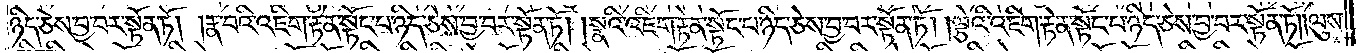ཉིད་ཅེས་བྱ་བར་སྟོན་ཏོ། །རྣ་བའི་འཇིག་རྟེན་སྟོང་པ་ཉིད་ཅེས་བྱ་བར་སྟོན་ཏོ། །སྣའི་འཇིག་རྟེན་སྟོང་པ་ཉིད་ཅེས་བྱ་བར་སྟོན་ཏོ། །ལྕེའི་འཇིག་རྟེན་སྟོང་པ་ཉིད་ཅེས་བྱ་བར་སྟོན་ཏོ། །ལུས་
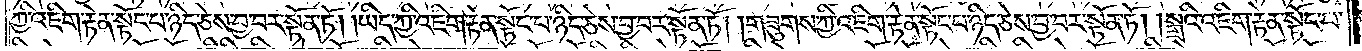ཀྱི་འཇིག་རྟེན་སྟོང་པ་ཉིད་ཅེས་བྱ་བར་སྟོན་ཏོ། །ཡིད་ཀྱི་འཇིག་རྟེན་སྟོང་པ་ཉིད་ཅེས་བྱ་བར་སྟོན་ཏོ། །གཟུགས་ཀྱི་འཇིག་རྟེན་སྟོང་པ་ཉིད་ཅེས་བྱ་བར་སྟོན་ཏོ། །སྒྲའི་འཇིག་རྟེན་སྟོང་པ་
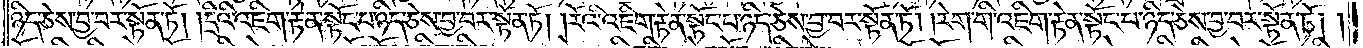ཉིད་ཅེས་བྱ་བར་སྟོན་ཏོ། །དྲིའི་འཇིག་རྟེན་སྟོང་པ་ཉིད་ཅེས་བྱ་བར་སྟོན་ཏོ། །རོའི་འཇིག་རྟེན་སྟོང་པ་ཉིད་ཅེས་བྱ་བར་སྟོན་ཏོ། །རེག་གི་འཇིག་རྟེན་སྟོང་པ་ཉིད་ཅེས་བྱ་བར་སྟོན་ཏོ། །
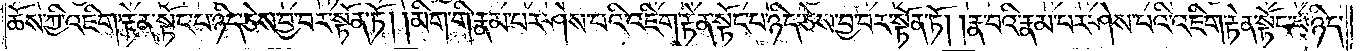ཆོས་ཀྱི་འཇིག་རྟེན་སྟོང་པ་ཉིད་ཅེས་བྱ་བར་སྟོན་ཏོ། །མིག་གི་རྣམ་པར་ཤེས་པའི་འཇིག་རྟེན་སྟོང་པ་ཉིད་ཅེས་བྱ་བར་སྟོན་ཏོ། །རྣ་བའི་རྣམ་པར་ཤེས་པའི་འཇིག་རྟེན་སྟོང་པ་ཉིད་
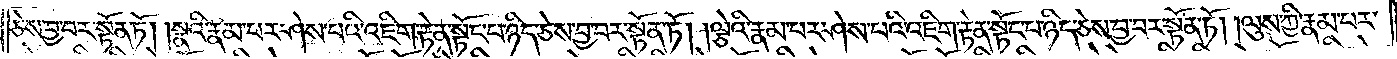ཅེས་བྱ་བར་སྟོན་ཏོ། །སྣའི་རྣམ་པར་ཤེས་པའི་འཇིག་རྟེན་སྟོང་པ་ཉིད་ཅེས་བྱ་བར་སྟོན་ཏོ། །ལྕེའི་རྣམ་པར་ཤེས་པའི་འཇིག་རྟེན་སྟོང་པ་ཉིད་ཅེས་བྱ་བར་སྟོན་ཏོ། །ལུས་ཀྱི་རྣམ་པར་
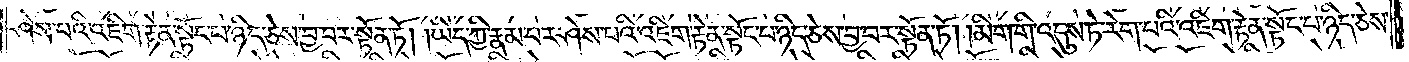ཤེས་པའི་འཇིག་རྟེན་སྟོང་པ་ཉིད་ཅེས་བྱ་བར་སྟོན་ཏོ། །ཡིད་ཀྱི་རྣམ་པར་ཤེས་པའི་འཇིག་རྟེན་སྟོང་པ་ཉིད་ཅེས་བྱ་བར་སྟོན་ཏོ། །མིག་གི་འདུས་ཏེ་རེག་པའི་འཇིག་རྟེན་སྟོང་པ་ཉིད་ཅེས་
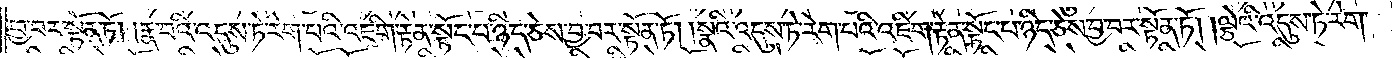བྱ་བར་སྟོན་ཏོ། །རྣ་བའི་འདུས་ཏེ་རེག་པའི་འཇིག་རྟེན་སྟོང་པ་ཉིད་ཅེས་བྱ་བར་སྟོན་ཏོ། །སྣའི་འདུས་ཏེ་རེག་པའི་འཇིག་རྟེན་སྟོང་པ་ཉིད་ཅེས་བྱ་བར་སྟོན་ཏོ། །ལྕེའི་འདུས་ཏེ་རེག་
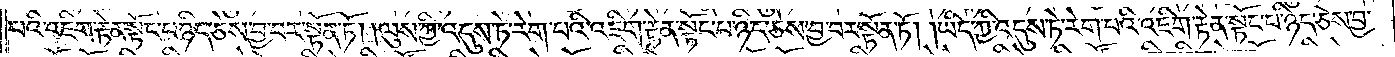པའི་འཇིག་རྟེན་སྟོང་པ་ཉིད་ཅེས་བྱ་བར་སྟོན་ཏོ། །ལུས་ཀྱི་འདུས་ཏེ་རེག་པའི་འཇིག་རྟེན་སྟོང་པ་ཉིད་ཅེས་བྱ་བར་སྟོན་ཏོ། །ཡིད་ཀྱི་འདུས་ཏེ་རེག་པའི་འཇིག་རྟེན་སྟོང་པ་ཉིད་ཅེས་བྱ་
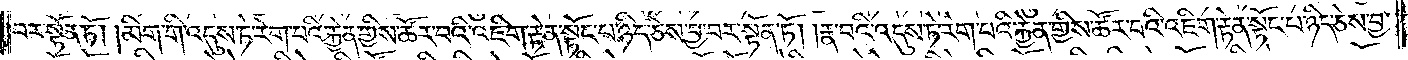བར་སྟོན་ཏོ། །མིག་གི་འདུས་ཏེ་རེག་པའི་རྐྱེན་གྱིས་ཚོར་བའི་འཇིག་རྟེན་སྟོང་པ་ཉིད་ཅེས་བྱ་བར་སྟོན་ཏོ། །རྣ་བའི་འདུས་ཏེ་རེག་པའི་རྐྱེན་གྱིས་ཚོར་བའི་འཇིག་རྟེན་སྟོང་པ་ཉིད་ཅེས་བྱ་
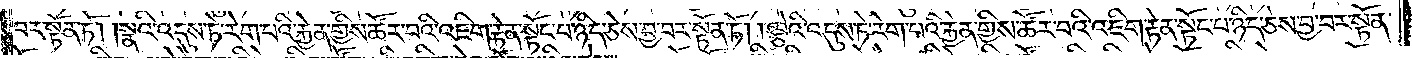བར་སྟོན་ཏོ། །སྣའི་འདུས་ཏེ་རེག་པའི་རྐྱེན་གྱིས་ཚོར་བའི་འཇིག་རྟེན་སྟོང་པ་ཉིད་ཅེས་བྱ་བར་སྟོན་ཏོ། །ལྕེའི་འདུས་ཏེ་རེག་པའི་རྐྱེན་གྱིས་ཚོར་བའི་འཇིག་རྟེན་སྟོང་པ་ཉིད་ཅེས་བྱ་བར་སྟོན་
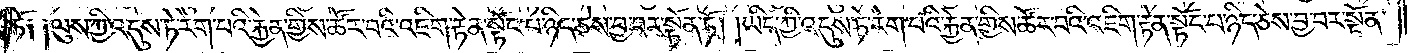ཏོ། །ལུས་ཀྱི་འདུས་ཏེ་རེག་པའི་རྐྱེན་གྱིས་ཚོར་བའི་འཇིག་རྟེན་སྟོང་པ་ཉིད་ཅེས་བྱ་བར་སྟོན་ཏོ། །ཡིད་ཀྱི་འདུས་ཏེ་རེག་པའི་རྐྱེན་གྱིས་ཚོར་བའི་འཇིག་རྟེན་སྟོང་པ་ཉིད་ཅེས་བྱ་བར་སྟོན་
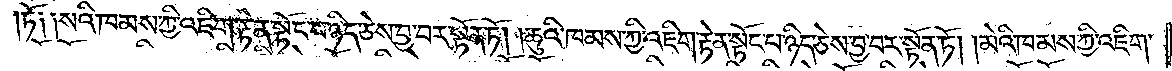ཏོ། །སའི་ཁམས་ཀྱི་འཇིག་རྟེན་སྟོང་པ་ཉིད་ཅེས་བྱ་བར་སྟོན་ཏོ། །ཆུའི་ཁམས་ཀྱི་འཇིག་རྟེན་སྟོང་པ་ཉིད་ཅེས་བྱ་བར་སྟོན་ཏོ། །མེའི་ཁམས་ཀྱི་འཇིག་
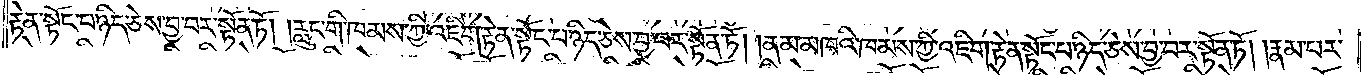རྟེན་སྟོང་པ་ཉིད་ཅེས་བྱ་བར་སྟོན་ཏོ། །རླུང་གི་ཁམས་ཀྱི་འཇིག་རྟེན་སྟོང་པ་ཉིད་ཅེས་བྱ་བར་སྟོན་ཏོ། །ནམ་མཁའི་ཁམས་ཀྱི་འཇིག་རྟེན་སྟོང་པ་ཉིད་ཅེས་བྱ་བར་སྟོན་ཏོ། །རྣམ་པར་
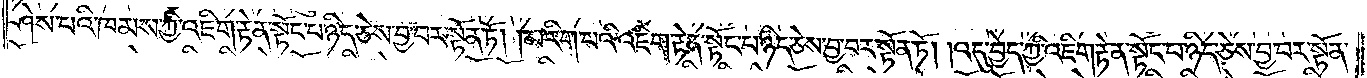ཤེས་པའི་ཁམས་ཀྱི་འཇིག་རྟེན་སྟོང་པ་ཉིད་ཅེས་བྱ་བར་སྟོན་ཏོ། །མ་རིག་པའི་འཇིག་རྟེན་སྟོང་པ་ཉིད་ཅེས་བྱ་བར་སྟོན་ཏོ། །འདུ་བྱེད་ཀྱི་འཇིག་རྟེན་སྟོང་པ་ཉིད་ཅེས་བྱ་བར་སྟོན་
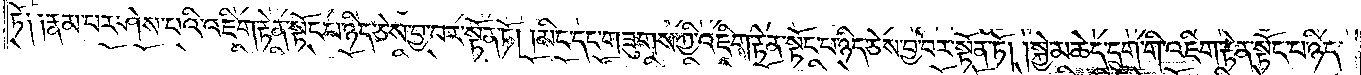ཏོ། །རྣམ་པར་ཤེས་པའི་འཇིག་རྟེན་སྟོང་པ་ཉིད་ཅེས་བྱ་བར་སྟོན་ཏོ། །མིང་དང་གཟུགས་ཀྱི་འཇིག་རྟེན་སྟོང་པ་ཉིད་ཅེས་བྱ་བར་སྟོན་ཏོ། །སྐྱེ་མཆེད་དྲུག་གི་འཇིག་རྟེན་སྟོང་པ་ཉིད་
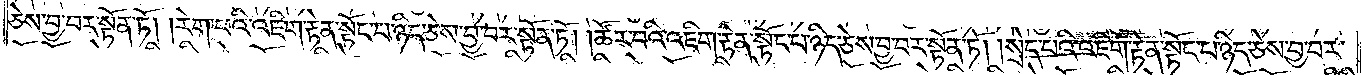ཅེས་བྱ་བར་སྟོན་ཏོ། །རེག་པའི་འཇིག་རྟེན་སྟོང་པ་ཉིད་ཅེས་བྱ་བར་སྟོན་ཏོ། །ཚོར་བའི་འཇིག་རྟེན་སྟོང་པ་ཉིད་ཅེས་བྱ་བར་སྟོན་ཏོ། །སྲེད་པའི་འཇིག་རྟེན་སྟོང་པ་ཉིད་ཅེས་བྱ་བར་
